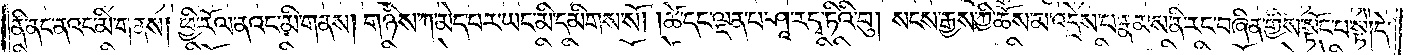ནི་ནང་ནའང་མི་གནས། ཕྱི་རོལ་ནའང་མི་གནས། གཉིས་ཀ་མེད་པར་ཡང་མི་དམིགས་སོ། །ཚེ་དང་ལྡན་པ་ཤཱ་ར་དྭ་ཏིའི་བུ། སངས་རྒྱས་ཀྱི་ཆོས་མ་འདྲེས་པ་རྣམས་ནི་རང་བཞིན་གྱིས་སྟོང་པ་སྟེ། དེ་
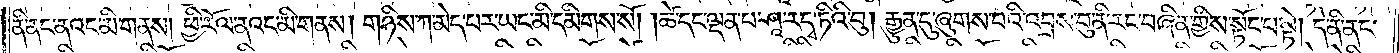ནི་ནང་ནའང་མི་གནས། ཕྱི་རོལ་ནའང་མི་གནས། གཉིས་ཀ་མེད་པར་ཡང་མི་དམིགས་སོ། །ཚེ་དང་ལྡན་པ་ཤཱ་ར་དྭ་ཏིའི་བུ། རྒྱུན་དུ་ཞུགས་པའི་འབྲས་བུ་ནི་རང་བཞིན་གྱིས་སྟོང་པ་སྟེ། དེ་ནི་ནང་
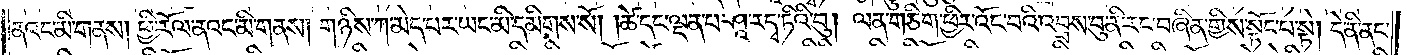ནའང་མི་གནས། ཕྱི་རོལ་ནའང་མི་གནས། གཉིས་ཀ་མེད་པར་ཡང་མི་དམིགས་སོ། །ཚེ་དང་ལྡན་པ་ཤཱ་ར་དྭ་ཏིའི་བུ། ལན་ཅིག་ཕྱིར་འོང་བའི་འབྲས་བུ་ནི་རང་བཞིན་གྱིས་སྟོང་པ་སྟེ། དེ་ནི་ནང་
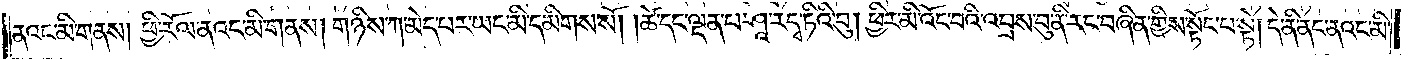ནའང་མི་གནས། ཕྱི་རོལ་ནའང་མི་གནས། གཉིས་ཀ་མེད་པར་ཡང་མི་དམིགས་སོ། །ཚེ་དང་ལྡན་པ་ཤཱ་ར་དྭ་ཏིའི་བུ། ཕྱིར་མི་འོང་བའི་འབྲས་བུ་ནི་རང་བཞིན་གྱིས་སྟོང་པ་སྟེ། དེ་ནི་ནང་ནའང་མི་
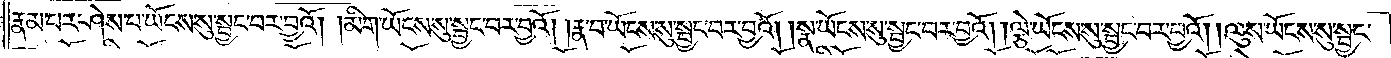རྣམ་པར་ཤེས་པ་ཡོངས་སུ་སྦྱང་བར་བྱའོ། །མིག་ཡོངས་སུ་སྦྱང་བར་བྱའོ། །རྣ་བ་ཡོངས་སུ་སྦྱང་བར་བྱའོ། །སྣ་ཡོངས་སུ་སྦྱང་བར་བྱའོ། །ལྕེ་ཡོངས་སུ་སྦྱང་བར་བྱའོ། །ལུས་ཡོངས་སུ་སྦྱང་
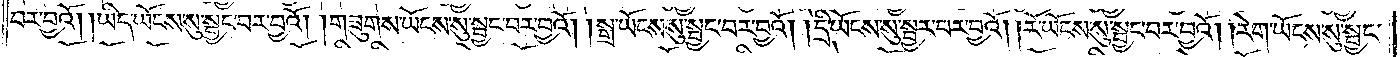བར་བྱའོ། །ཡིད་ཡོངས་སུ་སྦྱང་བར་བྱའོ། །གཟུགས་ཡོངས་སུ་སྦྱང་བར་བྱའོ། །སྒྲ་ཡོངས་སུ་སྦྱང་བར་བྱའོ། །དྲི་ཡོངས་སུ་སྦྱང་བར་བྱའོ། །རོ་ཡོངས་སུ་སྦྱང་བར་བྱའོ། །རེག་ཡོངས་སུ་སྦྱང་
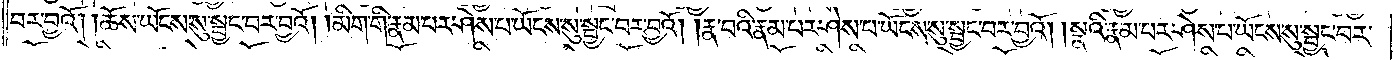བར་བྱའོ། །ཆོས་ཡོངས་སུ་སྦྱང་བར་བྱའོ། །མིག་གི་རྣམ་པར་ཤེས་པ་ཡོངས་སུ་སྦྱང་བར་བྱའོ། །རྣ་བའི་རྣམ་པར་ཤེས་པ་ཡོངས་སུ་སྦྱང་བར་བྱའོ། །སྣའི་རྣམ་པར་ཤེས་པ་ཡོངས་སུ་སྦྱང་བར་
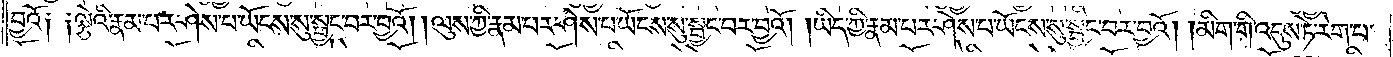བྱའོ། །ལྕེའི་རྣམ་པར་ཤེས་པ་ཡོངས་སུ་སྦྱང་བར་བྱའོ། །ལུས་ཀྱི་རྣམ་པར་ཤེས་པ་ཡོངས་སུ་སྦྱང་བར་བྱའོ། །ཡིད་ཀྱི་རྣམ་པར་ཤེས་པ་ཡོངས་སུ་སྦྱང་བར་བྱའོ། །མིག་གི་འདུས་ཏེ་རེག་པ་
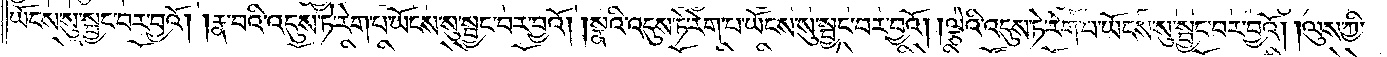ཡོངས་སུ་སྦྱང་བར་བྱའོ། །རྣ་བའི་འདུས་ཏེ་རེག་པ་ཡོངས་སུ་སྦྱང་བར་བྱའོ། །སྣའི་འདུས་ཏེ་རེག་པ་ཡོངས་སུ་སྦྱང་བར་བྱའོ། །ལྕེའི་འདུས་ཏེ་རེག་པ་ཡོངས་སུ་སྦྱང་བར་བྱའོ། །ལུས་ཀྱི་
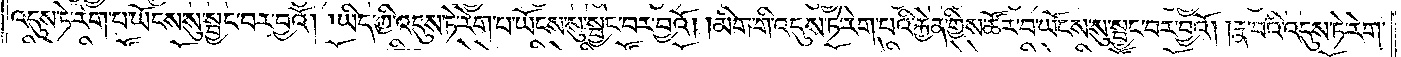འདུས་ཏེ་རེག་པ་ཡོངས་སུ་སྦྱང་བར་བྱའོ། །ཡིད་ཀྱི་འདུས་ཏེ་རེག་པ་ཡོངས་སུ་སྦྱང་བར་བྱའོ། །མིག་གི་འདུས་ཏེ་རེག་པའི་རྐྱེན་གྱིས་ཚོར་བ་ཡོངས་སུ་སྦྱང་བར་བྱའོ། །རྣ་བའི་འདུས་ཏེ་རེག་
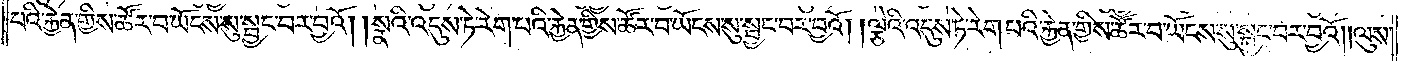པའི་རྐྱེན་གྱིས་ཚོར་བ་ཡོངས་སུ་སྦྱང་བར་བྱའོ། །སྣའི་འདུས་ཏེ་རེག་པའི་རྐྱེན་གྱིས་ཚོར་བ་ཡོངས་སུ་སྦྱང་བར་བྱའོ། །ལྕེའི་འདུས་ཏེ་རེག་པའི་རྐྱེན་གྱིས་ཚོར་བ་ཡོངས་སུ་སྦྱང་བར་བྱའོ། ། ལུས་
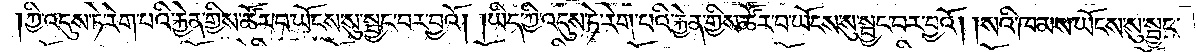ཀྱི་འདུས་ཏེ་རེག་པའི་རྐྱེན་གྱིས་ཚོར་བ་ཡོངས་སུ་སྦྱང་བར་བྱའོ། །ཡིད་ཀྱི་འདུས་ཏེ་རེག་པའི་རྐྱེན་གྱིས་ཚོར་བ་ཡོངས་སུ་སྦྱང་བར་བྱའོ། །སའི་ཁམས་ཡོངས་སུ་སྦྱང་
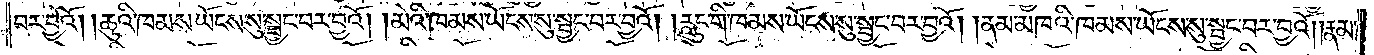བར་བྱའོ། །ཆུའི་ཁམས་ཡོངས་སུ་སྦྱང་བར་བྱའོ། །མེའི་ཁམས་ཡོངས་སུ་སྦྱང་བར་བྱའོ། །རླུང་གི་ཁམས་ཡོངས་སུ་སྦྱང་བར་བྱའོ། །ནམ་མཁའི་ཁམས་ཡོངས་སུ་སྦྱང་བར་བྱའོ། །རྣམ་
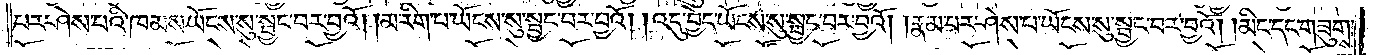པར་ཤེས་པའི་ཁམས་ཡོངས་སུ་སྦྱང་བར་བྱའོ། །མ་རིག་པ་ཡོངས་སུ་སྦྱང་བར་བྱའོ། །འདུ་བྱེད་ཡོངས་སུ་སྦྱང་བར་བྱའོ། །རྣམ་པར་ཤེས་པ་ཡོངས་སུ་སྦྱང་བར་བྱའོ། །མིང་དང་གཟུགས་
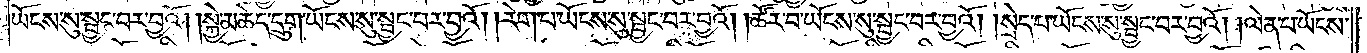ཡོངས་སུ་སྦྱང་བར་བྱའོ། །སྐྱེ་མཆེད་དྲུག་ཡོངས་སུ་སྦྱང་བར་བྱའོ། །རེག་པ་ཡོངས་སུ་སྦྱང་བར་བྱའོ། །ཚོར་བ་ཡོངས་སུ་སྦྱང་བར་བྱའོ། །སྲེད་པ་ཡོངས་སུ་སྦྱང་བར་བྱའོ། །ལེན་པ་ཡོངས་
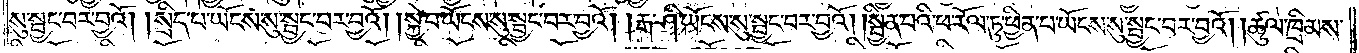སུ་སྦྱང་བར་བྱའོ། །སྲིད་པ་ཡོངས་སུ་སྦྱང་བར་བྱའོ། །སྐྱེ་བ་ཡོངས་སུ་སྦྱང་བར་བྱའོ། །རྒ་ཤི་ཡོངས་སུ་སྦྱང་བར་བྱའོ། །སྦྱིན་པའི་ཕ་རོལ་ཏུ་ཕྱིན་པ་ཡོངས་སུ་སྦྱང་བར་བྱའོ། །ཚུལ་ཁྲིམས་
